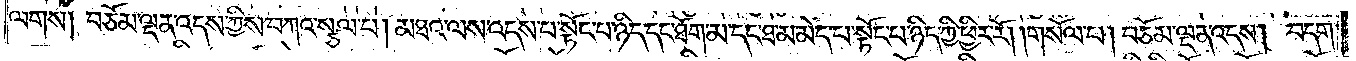ལགས། བཅོམ་ལྡན་འདས་ཀྱིས་བཀའ་སྩལ་པ། མཐའ་ལས་འདས་པ་སྟོང་པ་ཉིད་དང་ཐོག་མ་དང་ཐ་མ་མེད་པ་སྟོང་པ་ཉིད་ཀྱི་ཕྱིར་རོ། །གསོལ་པ། བཅོམ་ལྡན་འདས། བདག་
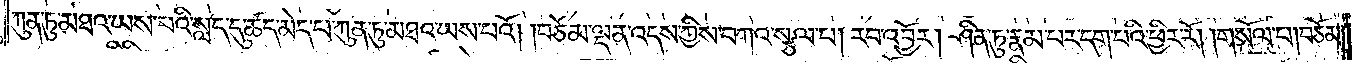ཀུན་ཏུ་མཐའ་ཡས་པའི་སླད་དུ་ཚད་མེད་པ་ཀུན་ཏུ་མཐའ་ཡས་པའོ། །བཅོམ་ལྡན་འདས་ཀྱིས་བཀའ་སྩལ་པ། རབ་འབྱོར། ཤིན་ཏུ་རྣམ་པར་དག་པའི་ཕྱིར་རོ། །གསོལ་པ། བཅོམ་
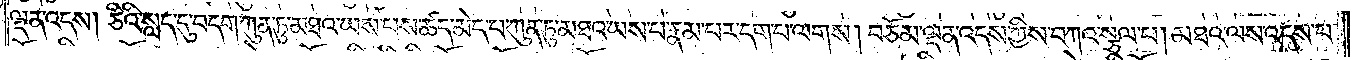ལྡན་འདས། ཅིའི་སླད་དུ་བདག་ཀུན་ཏུ་མཐའ་ཡས་པས་ཚད་མེད་པ་ཀུན་ཏུ་མཐའ་ཡས་པ་རྣམ་པར་དག་པ་ལགས། བཅོམ་ལྡན་འདས་ཀྱིས་བཀའ་སྩལ་པ། མཐའ་ལས་འདས་པ་
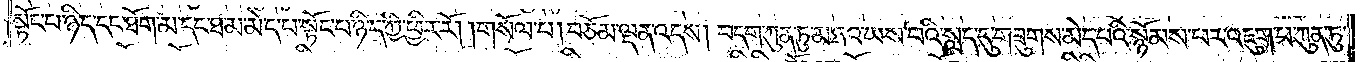སྟོང་པ་ཉིད་དང་ཐོག་མ་དང་ཐ་མ་མེད་པ་སྟོང་པ་ཉིད་ཀྱི་ཕྱིར་རོ། །གསོལ་པ། བཅོམ་ལྡན་འདས། བདག་ཀུན་ཏུ་མཐའ་ཡས་པའི་སླད་དུ་གཟུགས་མེད་པའི་སྙོམས་པར་འཇུག་པ་ཀུན་ཏུ་
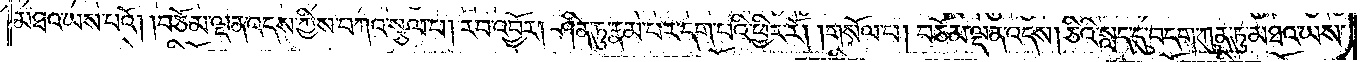མཐའ་ཡས་པའོ། །བཅོམ་ལྡན་འདས་ཀྱིས་བཀའ་སྩལ་པ། རབ་འབྱོར། ཤིན་ཏུ་རྣམ་པར་དག་པའི་ཕྱིར་རོ། །གསོལ་པ། བཅོམ་ལྡན་འདས། ཅིའི་སླད་དུ་བདག་ཀུན་ཏུ་མཐའ་ཡས་
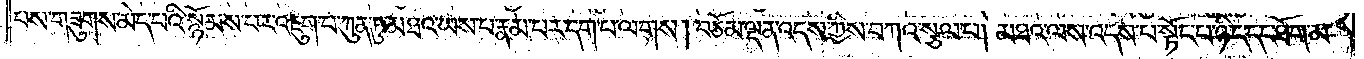པས་གཟུགས་མེད་པའི་སྙོམས་པར་འཇུག་པ་ཀུན་ཏུ་མཐའ་ཡས་པ་རྣམ་པར་དག་པ་ལགས། བཅོམ་ལྡན་འདས་ཀྱིས་བཀའ་སྩལ་པ། མཐའ་ལས་འདས་པ་སྟོང་པ་ཉིད་དང་ཐོག་མ་
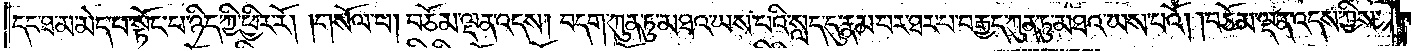དང་ཐ་མ་མེད་པ་སྟོང་པ་ཉིད་ཀྱི་ཕྱིར་རོ། །གསོལ་པ། བཅོམ་ལྡན་འདས། བདག་ཀུན་ཏུ་མཐའ་ཡས་པའི་སླད་དུ་རྣམ་པར་ཐར་པ་བརྒྱད་ཀུན་ཏུ་མཐའ་ཡས་པའོ། །བཅོམ་ལྡན་འདས་ཀྱིས་
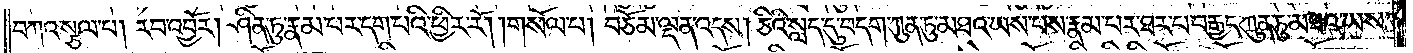བཀའ་སྩལ་པ། རབ་འབྱོར། ཤིན་ཏུ་རྣམ་པར་དག་པའི་ཕྱིར་རོ། །གསོལ་པ། བཅོམ་ལྡན་འདས། ཅིའི་སླད་དུ་བདག་ཀུན་ཏུ་མཐའ་ཡས་པས་རྣམ་པར་ཐར་པ་བརྒྱད་ཀུན་ཏུ་མཐའ་ཡས་
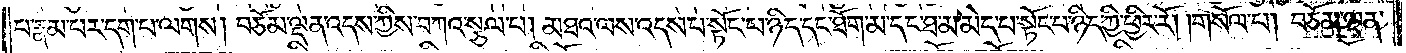པ་རྣམ་པར་དག་པ་ལགས། བཅོམ་ལྡན་འདས་ཀྱིས་བཀའ་སྩལ་པ། མཐའ་ལས་འདས་པ་སྟོང་པ་ཉིད་དང་ཐོག་མ་དང་ཐ་མ་མེད་པ་སྟོང་པ་ཉིད་ཀྱི་ཕྱིར་རོ། །གསོལ་པ། བཅོམ་ལྡན་
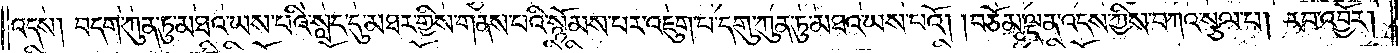འདས། བདག་ཀུན་ཏུ་མཐའ་ཡས་པའི་སླད་དུ་མཐར་གྱིས་གནས་པའི་སྙོམས་པར་འཇུག་པ་དགུ་ཀུན་ཏུ་མཐའ་ཡས་པའོ། །བཅོམ་ལྡན་འདས་ཀྱིས་བཀའ་སྩལ་པ། རབ་འབྱོར།
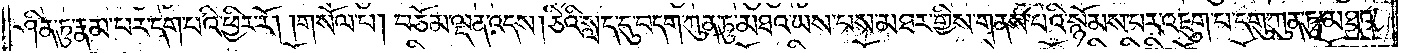ཤིན་ཏུ་རྣམ་པར་དག་པའི་ཕྱིར་རོ། །གསོལ་པ། བཅོམ་ལྡན་འདས། ཅིའི་སླད་དུ་བདག་ཀུན་ཏུ་མཐའ་ཡས་པས་མཐར་གྱིས་གནས་པའི་སྙོམས་པར་འཇུག་པ་དགུ་ཀུན་ཏུ་མཐའ་
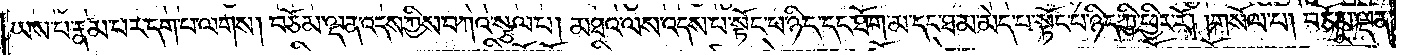ཡས་པ་རྣམ་པར་དག་པ་ལགས། བཅོམ་ལྡན་འདས་ཀྱིས་བཀའ་སྩལ་པ། མཐའ་ལས་འདས་པ་སྟོང་པ་ཉིད་དང་ཐོག་མ་དང་ཐ་མ་མེད་པ་སྟོང་པ་ཉིད་ཀྱི་ཕྱིར་རོ། །གསོལ་པ། བཅོམ་ལྡན་
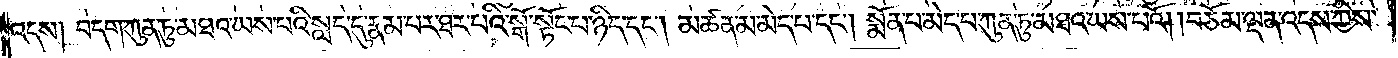འདས། བདག་ཀུན་ཏུ་མཐའ་ཡས་པའི་སླད་དུ་རྣམ་པར་ཐར་པའི་སྒོ་སྟོང་པ་ཉིད་དང༌། མཚན་མ་མེད་པ་དང༌། སྨོན་པ་མེད་པ་ཀུན་ཏུ་མཐའ་ཡས་པའོ། །བཅོམ་ལྡན་འདས་ཀྱིས་
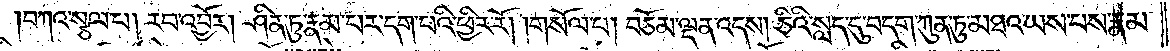བཀའ་སྩལ་པ། རབ་འབྱོར། ཤིན་ཏུ་རྣམ་པར་དག་པའི་ཕྱིར་རོ། །གསོལ་པ། བཅོམ་ལྡན་འདས། ཅིའི་སླད་དུ་བདག་ཀུན་ཏུ་མཐའ་ཡས་པས་རྣམ་
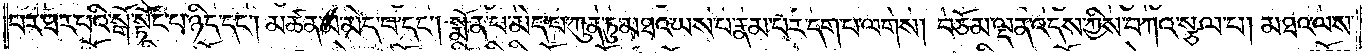པར་ཐར་པའི་སྒོ་སྟོང་པ་ཉིད་དང༌། མཚན་མ་མེད་པ་དང༌། སྨོན་པ་མེད་པ་ཀུན་ཏུ་མཐའ་ཡས་པ་རྣམ་པར་དག་པ་ལགས། བཅོམ་ལྡན་འདས་ཀྱིས་བཀའ་སྩལ་པ། མཐའ་ལས་
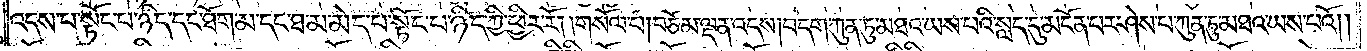འདས་པ་སྟོང་པ་ཉིད་དང་ཐོག་མ་དང་ཐ་མ་མེད་པ་སྟོང་པ་ཉིད་ཀྱི་ཕྱིར་རོ། །གསོལ་པ། བཅོམ་ལྡན་འདས། བདག་ཀུན་ཏུ་མཐའ་ཡས་པའི་སླད་དུ་མངོན་པར་ཤེས་པ་ཀུན་ཏུ་མཐའ་ཡས་པའོ། །
